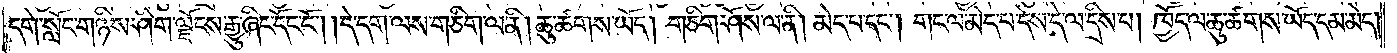དགེ་སློང་གཉིས་ཤིག་ལྗོངས་རྒྱུ་ཞིང་དོང་ངོ༌། །དེ་དག་ལས་གཅིག་ལ་ནི། ཆུ་ཚགས་ཡོད། གཅིག་ཤོས་ལ་ནི། མེད་པ་དང༌། གང་ལ་མེད་པ་དེས་དེ་ལ་དྲིས་པ། ཁྱོད་ལ་ཆུ་ཚགས་ཡོད་དམ་མེད།
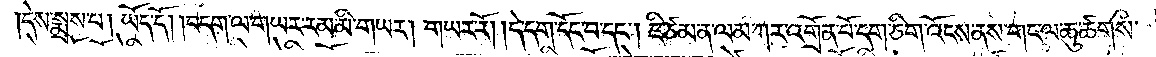དེས་སྨྲས་པ། ཡོད་དོ། །བདག་ལ་གཡར་རམ་མི་གཡར། གཡར་རོ། །དེ་དག་དོང་བ་དང༌། ཇི་ཙམ་ན་ལམ་ཀར་འགྲོན་པོ་དག་ཅིག་འོངས་ནས་གང་ལ་ཆུ་ཚགས་
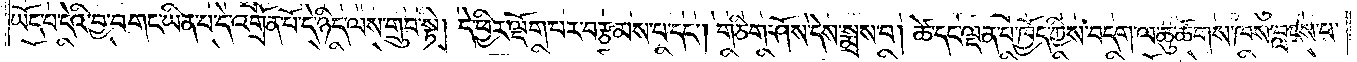ཡོད་བ་དེའི་བྱ་བ་གང་ཡིན་པ་དེ་འགྲོན་པོ་དེ་ཉིད་ལས་གྲུབ་སྟེ། དེ་ཕྱིར་ལྡོག་པར་བརྩམས་པ་དང༌། གཅིག་ཤོས་དེས་སྨྲས་པ། ཚེ་དང་ལྡན་པ་ཁྱོད་ཀྱིས་བདག་ལ་ཆུ་ཚགས་ཁས་བླངས་པ་
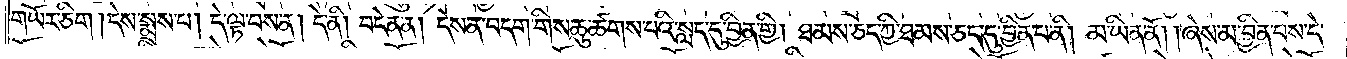གཡོར་ཅིག །དེས་སྨྲས་པ། དེ་ལྟ་བས་ན། དེ་ནི། བདེན་ན། དེས་ན་བདག་གིས་ཆུ་ཚགས་པའི་སླད་དུ་བྱིན་གྱི། ཐམས་ཅད་ཀྱི་ཐམས་ཅད་དུ་བྱིན་པ་ནི། མ་ཡིན་ནོ། །ཞེས་མ་བྱིན་པས་དེ་
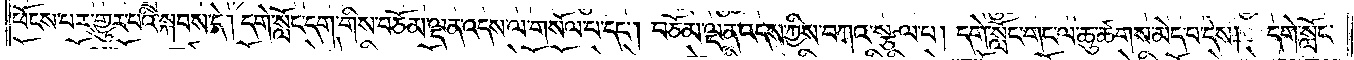ཕོངས་པར་གྱུར་པའི་སྐབས་དེ། དགེ་སློང་དག་གིས་བཅོམ་ལྡན་འདས་ལ་གསོལ་བ་དང༌། བཅོམ་ལྡན་འདས་ཀྱིས་བཀའ་སྩལ་པ། དགེ་སློང་གང་ལ་ཆུ་ཚགས་མེད་པ་དེས། དགེ་སློང་
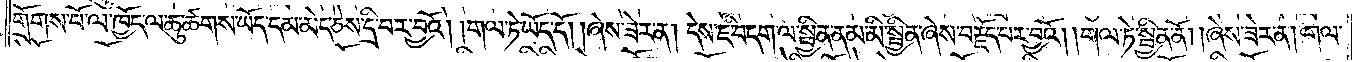གྲོགས་པོ་ལ་ཁྱོད་ལ་ཆུ་ཚགས་ཡོད་དམ་མེད་ཅེས་དྲི་བར་བྱའོ། །གལ་ཏེ་ཡོད་དོ། །ཞེས་ཟེར་ན། དེས་ཇི་བདག་ལ་སྦྱིན་ནམ་མི་སྦྱིན་ཞེས་བརྗོད་པར་བྱའོ། །གལ་ཏེ་སྦྱིན་ནོ། །ཞེས་ཟེར་ན། གལ་
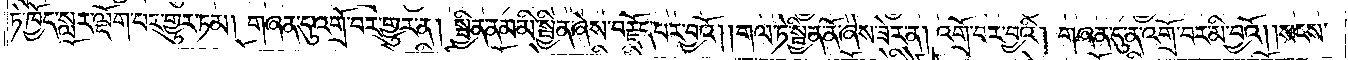ཏེ་ཁྱོད་སླར་ལྡོག་པར་གྱུར་ཏམ། གཞན་དུ་འགྲོ་བར་གྱུར་ན། སྦྱིན་ནམ་མི་སྦྱིན་ཞེས་བརྗོད་པར་བྱའོ། །གལ་ཏེ་སྦྱིན་ནོ་ཞེས་ཟེར་ན། འགྲོ་བར་བྱའི། གཞན་དུ་ན་འགྲོ་བར་མི་བྱའོ། །སངས་
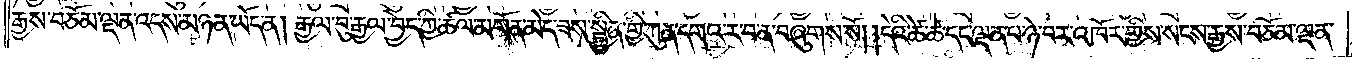རྒྱས་བཅོམ་ལྡན་འདས་མཉན་ཡོད་ན། རྒྱལ་བུ་རྒྱལ་བྱེད་ཀྱི་ཚལ་མགོན་མེད་ཟས་སྦྱིན་གྱི་ཀུན་དགའ་ར་བ་ན་བཞུགས་སོ། །དེའི་ཚེ་ཚེ་དང་ལྡན་པ་ཉེ་བར་འཁོར་གྱིས་སངས་རྒྱས་བཅོམ་ལྡན་
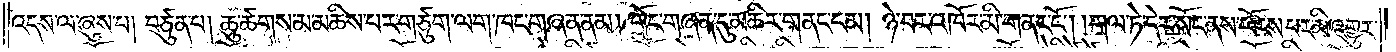འདས་ལ་ཞུས་པ། བཙུན་པ། ཆུ་ཚགས་མ་མཆིས་པར་གཙུག་ལག་ཁང་གཞན་ནམ། གྲོང་གཞན་དུ་མཆིར་གནང་ངམ། ཉེ་བར་འཁོར་མི་གནང་ངོ༌། །གལ་ཏེ་དེར་སོང་ནས་ཕོངས་པར་མི་འགྱུར་
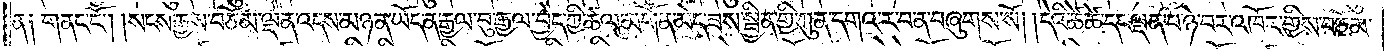ན། གནང་ངོ༌། །སངས་རྒྱས་བཅོམ་ལྡན་འདས་མཉན་ཡོད་ན་རྒྱལ་བུ་རྒྱལ་བྱེད་ཀྱི་ཚལ་མགོན་མེད་ཟས་སྦྱིན་གྱི་ཀུན་དགའ་ར་བ་ན་བཞུགས་སོ། །དེའི་ཚེ་ཚེ་དང་ལྡན་པ་ཉེ་བར་འཁོར་གྱིས་བཅོམ་
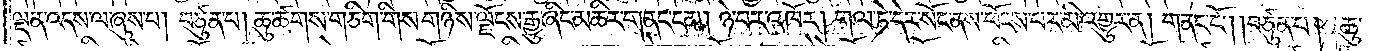ལྡན་འདས་ལ་ཞུས་པ། བཙུན་པ། ཆུ་ཚགས་གཅིག་གིས་གཉིས་ལྗོངས་རྒྱུ་ཞིང་མཆིར་གནང་ངམ། ཉེ་བར་འཁོར། གལ་ཏེ་དེར་སོང་ནས་ཕོངས་པར་མི་འགྱུར་ན། གནང་ངོ༌། །བཙུན་པ། ཆུ་
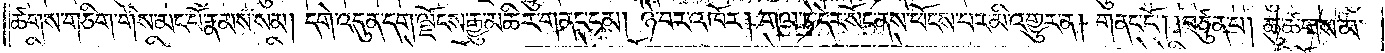ཚགས་གཅིག་གིས་མང་པོ་རྣམས་སམ། དགེ་འདུན་དག་ལྗོངས་རྒྱུ་མཆིར་གནང་ངམ། ཉེ་བར་འཁོར། གལ་ཏེ་དེར་སོང་ནས་ཕོངས་པར་མི་འགྱུར་ན། གནང་ངོ༌། །བཙུན་པ། ཆུ་ཚགས་མ་
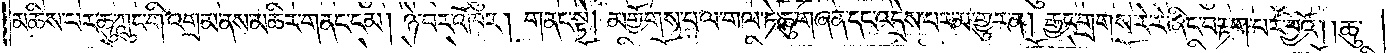མཆིས་པར་ཆུ་ཀླུང་གི་འགྲམ་ནས་མཆིར་གནང་ངམ། ཉེ་བར་འཁོར། གནང་སྟེ། མགྱོགས་པ་ལ་གལ་ཏེ་ཆུ་གཞན་དང་འདྲེས་པར་མ་གྱུར་ན། རྒྱང་གྲགས་རེ་རེ་ཞིང་བརྟག་པར་བྱའོ། །ཆུ་
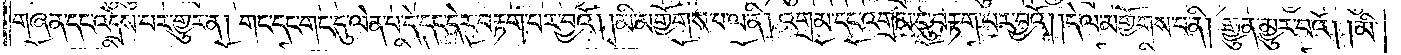གཞན་དང་འདྲེས་པར་གྱུར་ན། གང་དང་གང་དུ་ལེན་པ་དེ་དང་དེར་བརྟག་པར་བྱའོ། །མི་མགྱོགས་པ་ལ་ནི། འགྲམ་དང་འགྲམ་དུ་བརྟག་པར་བྱའོ། །དེ་ལ་མགྱོགས་པ་ནི། །རྒྱུན་མྱུར་བའོ། །མི་
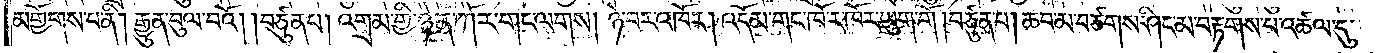མགྱོགས་པ་ནི། རྒྱུན་བུལ་བའོ། །བཙུན་པ། འགྲམ་གྱི་ཉེན་ཀོར་གང་ལགས། ཉེ་བར་འཁོར། འདོམ་གང་ཁོ་ར་ཁོར་ཡུག་གོ །བཙུན་པ། ཆབ་མ་བཙགས་ཤིང་མ་བརྟགས་པ་འཚལ་དུ་
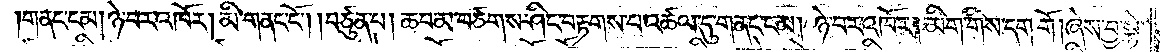གནང་ངམ། ཉེ་བར་འཁོར། མི་གནང་ངོ༌། །བཙུན་པ། ཆབ་མ་བཙགས་ཤིང་བརྟགས་པ་འཚལ་དུ་གནང་ངམ། ཉེ་བར་འཁོར། མིག་གིས་དག་གོ །ཞེས་བྱ་སྟེ་
